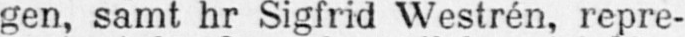gen, samt hr Sigfrid Westrén, repre-
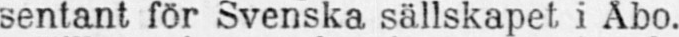sentant för Svenska sällskapet i Åbo.
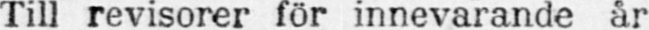Till revisorer för innevarande år
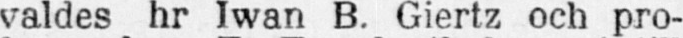valdes hr Iwan B. Giertz och pro-
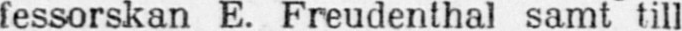fessorskan E. Freudenthal samt till
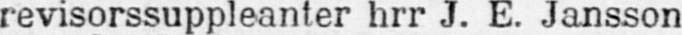revisorssuppleanter hrr J. E. Jansson
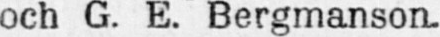och G. E. Bergmanson.
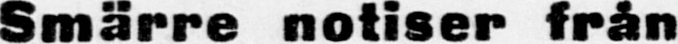Smärre notiser från
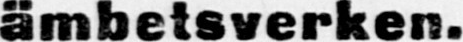ämbetsverken.
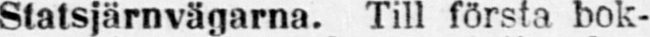Statsjärnvägarna. Till första bok-
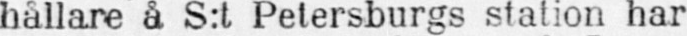hållare å S:t Petersburgs station har
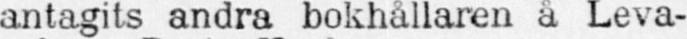antagits andra bokhållaren å Leva-
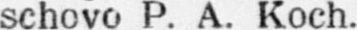schovo P. A. Koch.
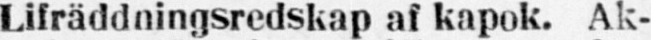Lifräddningsredskap af kapok. Ak-
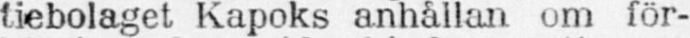tiebolaget Kapoks anhållan om för-
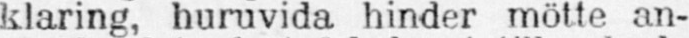klaring, huruvida hinder mötte an-
